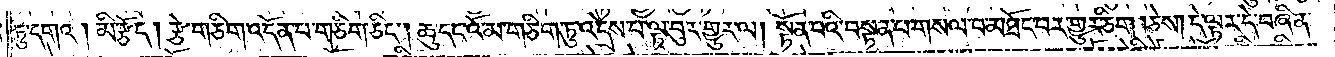ཏུ་དགའ། མི་རྩོད། རྩེ་གཅིག་འདོན་པ་གཅིག་ཅིང༌། ཆུ་དང་འོ་མ་གཅིག་ཏུ་འདྲེས་པ་ལྟ་བུར་གྱུར་ལ། སྟོན་པའི་བསྟན་པ་གསལ་བ་མཐོང་བར་གྱུར་ཅིག །ཅེས། དེ་ལྟར་དེ་བཞིན་
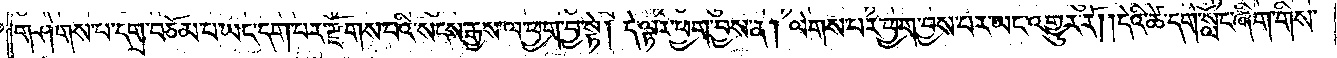གཤེགས་པ་དགྲ་བཅོམ་པ་ཡང་དག་པར་རྫོགས་པའི་སངས་རྒྱས་ལ་ཕྱག་བྱ་སྟེ། དེ་ལྟར་ཕྱག་བྱས་ན། ལེགས་པར་ཕྱག་བྱས་པར་ཡང་འགྱུར་རོ། །དེའི་ཚེ་དགེ་སློང་ཞིག་གིས་
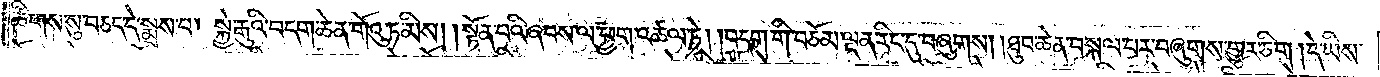ཚིགས་སུ་བཅད་དེ་སྨྲས་པ། སྐྱེ་རྒུའི་བདག་ཆེན་གོའུ་ཏ་མིས། །སྟོན་པའི་ཞབས་ལ་ཕྱག་འཚལ་ཏེ། །བདག་གི་བཅོམ་ལྡན་འདས་རིང་དུ་བཞུགས། །ཐུབ་ཆེན་བསྐལ་བར་བཞུགས་གྱུར་ཅིག །དེ་ཡིས་
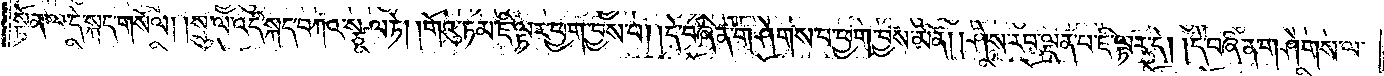སྟོན་ལ་དེ་སྐད་གསོལ། །སྲུ་ལ་འདི་སྐད་བཀའ་སྩལ་ཏེ། །གོའུ་ཏམ་ཇི་ལྟར་ཕྱག་བྱས་པ། །དེ་བཞིན་གཤེགས་པ་ཕྱག་བྱས་མིན། །ཤེས་རབ་ལྡན་པ་ཇི་ལྟར་དེ། །དེ་བཞིན་གཤེགས་ལ་
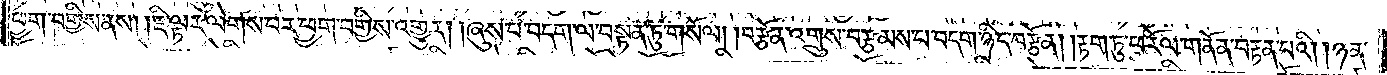ཕྱག་བགྱིས་ནས། །ཇི་ལྟར་ལེགས་པར་ཕྱག་བགྱིས་འགྱུར། །ཞུས་པ་བདག་ལ་བསྟན་ཏུ་གསོལ། །བརྩོན་འགྲུས་བརྩམས་པ་བདག་ཉིད་བརྩོན། །རྟག་ཏུ་ཕ་རོལ་གནོན་བརྟན་པའི། །ཉན་
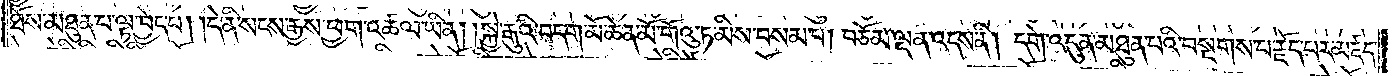ཐོས་མཐུན་པ་ལྟ་བྱེད་པ། །དེ་ནི་སངས་རྒྱས་ཕྱག་འཚལ་ཡིན། །སྐྱེ་རྒུའི་བདག་མོ་ཆེན་མོ་གོའུ་ཏ་མིས་བསམ་པ། བཅོམ་ལྡན་འདས་ནི། དགེ་འདུན་མཐུན་པའི་བསྔགས་པ་རྗོད་པར་མཛད་
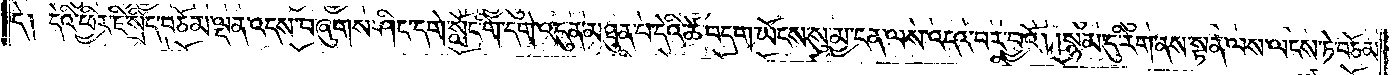དེ། དེའི་ཕྱིར་ཇི་སྲིད་བཅོམ་ལྡན་འདས་བཞུགས་ཤིང་དགེ་སློང་གི་དགེ་འདུན་མཐུན་པ་དེའི་ཚེ་བདག་ཡོངས་སུ་མྱ་ངན་ལས་འདའ་བར་བྱའོ། །སྙམ་དུ་རིག་ནས་སྟན་ལས་ལངས་ཏེ་བཅོམ་
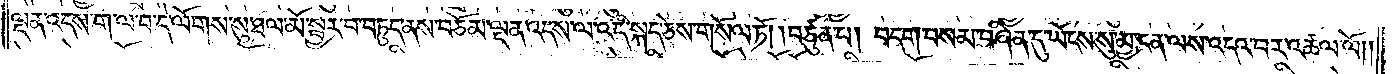ལྡན་འདས་ག་ལ་བ་དེ་ལོགས་སུ་ཐལ་མོ་སྦྱར་བ་བཏུད་ནས་བཅོམ་ལྡན་འདས་ལ་འདི་སྐད་ཅེས་གསོལ་ཏོ། །བཙུན་པ། བདག་བསམ་བཞིན་དུ་ཡོངས་སུ་མྱ་ངན་ལས་འདའ་བར་འཚལ་ལོ། །
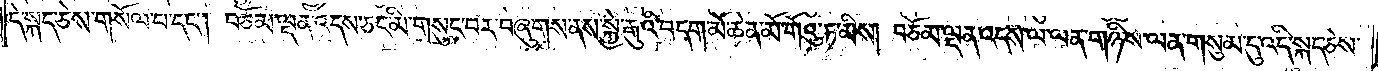དེ་སྐད་ཅེས་གསོལ་བ་དང༌། བཅོམ་ལྡན་འདས་ཅང་མི་གསུང་བར་བཞུགས་ནས་སྐྱེ་རྒུའི་བདག་མོ་ཆེན་མོ་གོའུ་ཏ་མིས། བཅོམ་ལྡན་འདས་ལ་ལན་གཉིས་ལན་གསུམ་དུ་འདི་སྐད་ཅེས་
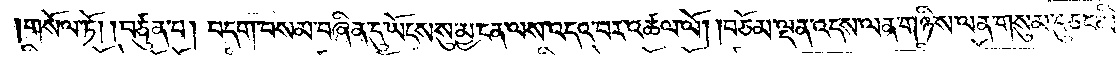གསོལ་ཏོ། །བཙུན་པ། བདག་བསམ་བཞིན་དུ་ཡོངས་སུ་མྱ་ངན་ལས་འདའ་བར་འཚལ་ལོ། །བཅོམ་ལྡན་འདས་ལན་གཉིས་ལན་གསུམ་དུ་ཅང་མི་
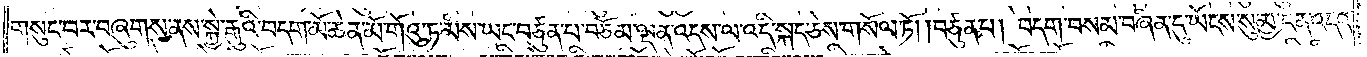གསུང་བར་བཞུགས་ནས་སྐྱེ་རྒུའི་བདག་མོ་ཆེན་མོ་གོའུ་ཏ་མིས་ཡང་བཙུན་པ་བཅོམ་ལྡན་འདས་ལ་འདི་སྐད་ཅེས་གསོལ་ཏོ། །བཙུན་པ། བདག་བསམ་བཞིན་དུ་ཡོངས་སུ་མྱ་ངན་འདའ་
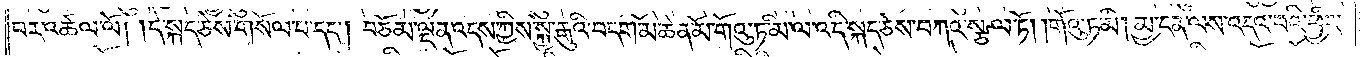བར་འཚལ་ལོ། །དེ་སྐད་ཅེས་གསོལ་པ་དང༌། བཅོམ་ལྡན་འདས་ཀྱིས་སྐྱེ་རྒུའི་བདག་མོ་ཆེན་མོ་གོའུ་ཏ་མི་ལ་འདི་སྐད་ཅེས་བཀའ་སྩལ་ཏོ། །གོའུ་ཏ་མི། མྱ་ངན་ལས་འདའ་བའི་ཕྱིར་
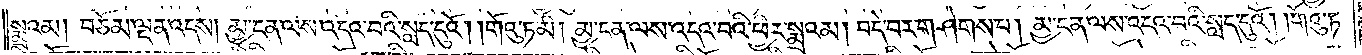སྨྲའམ། བཅོམ་ལྡན་འདས། མྱ་ངན་ལས་འདའ་བའི་སླད་དུའོ། །གོའུ་ཏ་མི། མྱ་ངན་ལས་འདའ་བའི་ཕྱིར་སྨྲའམ། བདེ་བར་གཤེགས་པ། མྱ་ངན་ལས་འདའ་བའི་སླད་དུའོ། །གོའུ་ཏ་
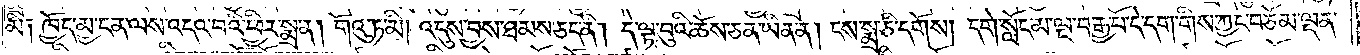མི། ཁྱོད་མྱ་ངན་ལས་འདའ་བའི་ཕྱིར་སྨྲ་ན། གོའུ་ཏ་མི། འདུས་བྱས་ཐམས་ཅད་ནི། དེ་ལྟ་བུའི་ཆོས་ཅན་ཡིན་ན། ངས་སྨྲ་ཅི་དགོས། དགེ་སློང་མ་ལྔ་བརྒྱ་པོ་དེ་དག་གིས་ཀྱང་བཅོམ་ལྡན་
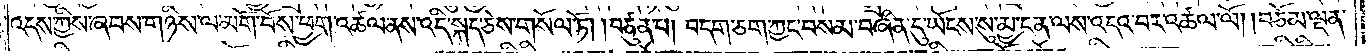འདས་ཀྱིས་ཞབས་གཉིས་ལ་མགོ་བོས་ཕྱག་འཚལ་ནས་འདི་སྐད་ཅེས་གསོལ་ཏེ། །བཙུན་པ། བདག་ཅག་ཀྱང་བསམ་བཞིན་དུ་ཡོངས་སུ་མྱ་ངན་ལས་འདའ་བར་འཚལ་ལོ། །བཅོམ་ལྡན་
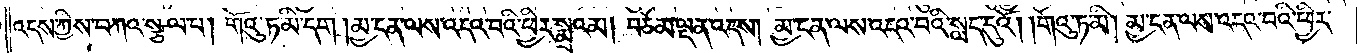འདས་ཀྱིས་བཀའ་སྩལ་པ། གོའུ་ཏ་མི་དག །མྱ་ངན་ལས་འདའ་བའི་ཕྱིར་སྨྲའམ། བཅོམ་ལྡན་འདས། མྱ་ངན་ལས་འདའ་བའི་སླད་དུའོ། །གོའུ་ཏ་མི། མྱ་ངན་ལས་འདའ་བའི་ཕྱིར་
